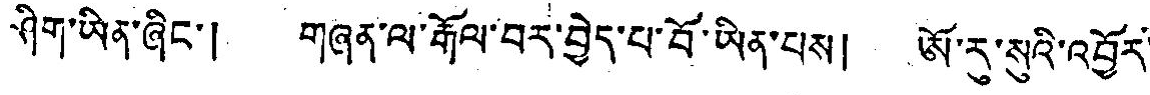ཤིག་ཡིན་ཞིང་། གཞན་ལ་རྒོལ་བར་བྱེད་པ་བོ་ཡིན་པས། ཨོ་རུ་སུའི་འབྱོར་
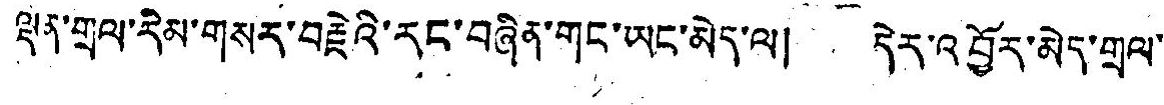ལྡན་གྲལ་རིམ་གསར་བརྗེའི་རང་བཞིན་གང་ཡང་མེད་ལ། དེར་འབྱོར་མེད་གྲལ་
